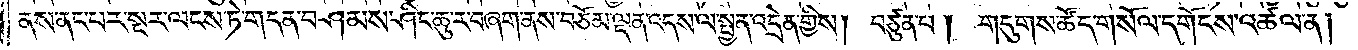ནས་ནང་པར་སྔར་ལངས་ཏེ་གདན་བཤམས་ཤིང་ཆུ་ར་བཞག་ནས་བཅོམ་ལྡན་འདས་ལ་སྤྱན་འདྲེན་གྱིས། བཙུན་པ། གདུགས་ཚོད་གསོལ་དགོངས་འཚལ་ན།
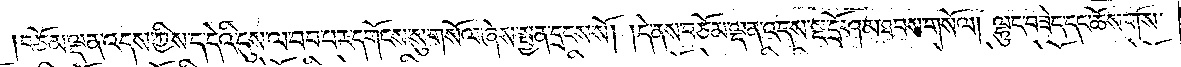བཅོམ་ལྡན་འདས་ཀྱིས་ད་དེའི་དུས་ལ་བབ་པར་དགོངས་སུ་གསོལ་ཞེས་སྤྱན་དྲངས་སོ། །དེ་ནས་བཅོམ་ལྡན་འདས་སྔ་དྲོ་ཤམ་ཐབས་གསོལ། ལྷུང་བཟེད་དང་ཆོས་གོས་
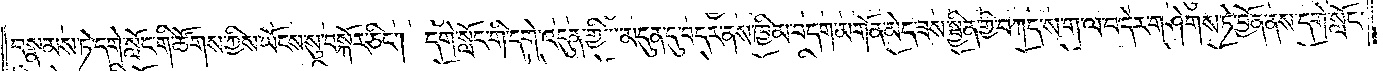བསྣམས་ཏེ་དགེ་སློང་གི་ཚོགས་ཀྱིས་ཡོངས་སུ་བསྐོར་ཅིང༌། དགེ་སློང་གི་དགེ་འདུན་གྱིས་མདུན་དུ་བདར་ནས་ཁྱིམ་བདག་མགོན་མེད་ཟས་སྦྱིན་གྱི་བཀད་ས་ག་ལ་བ་དེར་གཤེགས་ཏེ་བྱོན་ནས་དགེ་སློང་
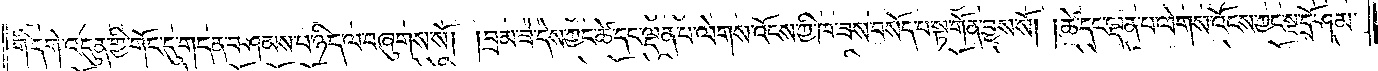གི་དགེ་འདུན་གྱི་གོང་དུ་གདན་བཤམས་པ་ཉིད་ལ་བཞུགས་སོ། །བྲམ་ཟེ་དེས་ཀྱང་ཚེ་དང་ལྡན་པ་ལེགས་འོངས་ཀྱི་ཁ་ཟས་བསོད་པ་སྟ་གོན་བྱས་སོ། །ཚེ་དང་ལྡན་པ་ལེགས་འོངས་ཀྱང་སྔ་དྲོ་ཤམ་
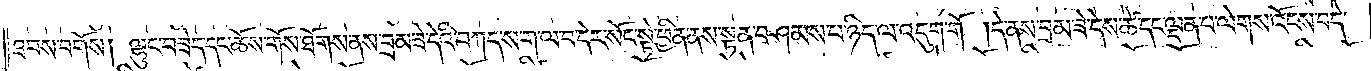ཐབས་བགོས། ལྷུང་བཟེད་དང་ཆོས་གོས་ཐོགས་ནས་བྲམ་ཟེ་དེའི་བཀད་ས་ག་ལ་བ་དེར་སོང་སྟེ་ཕྱིན་ནས་སྟན་བཤམས་པ་ཉིད་ལ་འདུག་གོ །དེ་ནས་བྲམ་ཟེ་དེས་ཚེ་དང་ལྡན་པ་ལེགས་འོངས་བདེ་
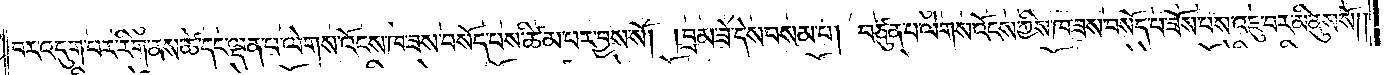བར་འདུག་པར་རིག་ནས་ཚེ་དང་ལྡན་པ་ལེགས་འོངས་ཁ་ཟས་བསོད་པས་ཚིམ་པར་བྱས་སོ། །བྲམ་ཟེ་དེས་བསམ་པ། བཙུན་པ་ལེགས་འོངས་ཀྱིས་ཁ་ཟས་བསོད་པ་ཟོས་པས་འཇུ་བར་མི་ནུས་སོ། །
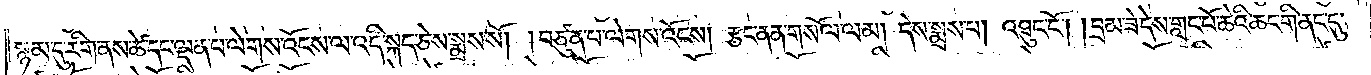སྙམ་དུ་རིག་ནས་ཚེ་དང་ལྡན་པ་ལེགས་འོངས་ལ་འདི་སྐད་ཅེས་སྨྲས་སོ། །བཙུན་པ་ལེགས་འོངས། རྩང་ནན་གསོལ་ལམ། དེས་སྨྲས་པ། འཐུང་ངོ༌། །བྲམ་ཟེ་དེས་གླང་པོ་ཆེའི་ཆང་གི་ནང་དུ་
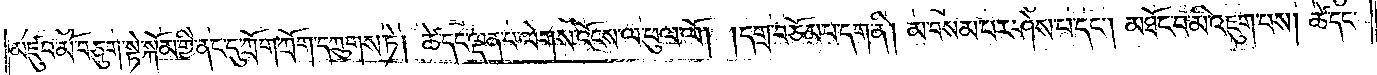མཛུབ་མོ་བཅུག་སྟེ་སྐོམ་གྱི་ནང་དུ་ཀྲོག་ཀྲོག་དཀྲུགས་ཏེ། ཚེ་དང་ལྡན་པ་ལེགས་འོངས་ལ་ཕུལ་ལོ། །དགྲ་བཅོམ་པ་དག་ནི། མ་བསམ་པར་ཤེས་པ་དང༌། མཐོང་བ་མི་འཇུག་པས། ཚེ་དང་
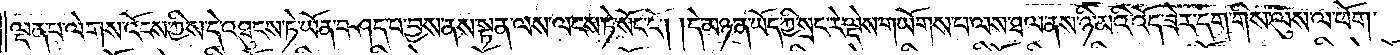ལྡན་པ་ལེགས་འོངས་ཀྱིས་དེ་འཐུངས་ཏེ་ཡོན་བཤད་པ་བྱས་ནས་སྟན་ལས་ལངས་ཏེ་སོང་ངོ༌། །དེ་མཉན་ཡོད་ཀྱི་སྲང་རེ་ལྡེས་གཡོགས་པ་ལས་ཐལ་ནས་ཉི་མའི་འོད་ཟེར་དག་གིས་ལུས་ལ་ཕོག་
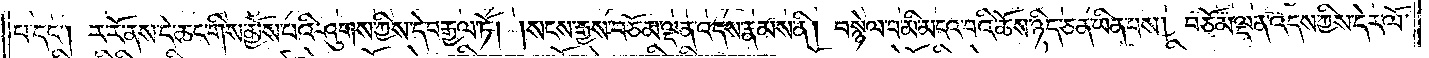པ་དང༌། ར་རོ་ནས་དེ་ཆང་གིས་མྱོས་པའི་ཤུགས་ཀྱིས་དེ་བརྒྱལ་ཏོ། །སངས་རྒྱས་བཅོམ་ལྡན་འདས་རྣམས་ནི། བསྙེལ་བ་མི་མངའ་བའི་ཆོས་ཉིད་ཅན་ཡིན་པས། བཅོམ་ལྡན་འདས་ཀྱིས་དེར་ལོ་
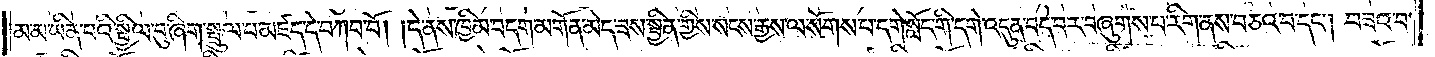མ་མ་ཡིན་པའི་སྤྱིལ་བུ་ཞིག་སྤྲུལ་པ་མཛད་དེ་བཀབ་བོ། །དེ་ནས་ཁྱིམ་བདག་མགོན་མེད་ཟས་སྦྱིན་གྱིས་སངས་རྒྱས་ལ་སོགས་པ་དགེ་སློང་གེ་དགེ་འདུན་བདེ་བར་བཞུགས་པ་རིག་ནས་བཅའ་བ་དང༌། བཟའ་བ་
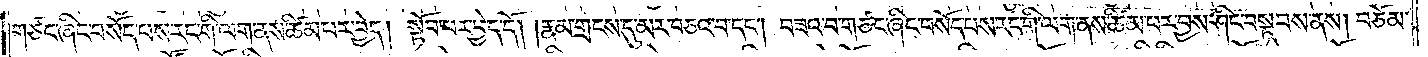གཙང་ཞིང་བསོད་པས་རང་གི་ལག་ནས་ཚིམ་པར་བྱེད། སྟོབ་པར་བྱེད་དོ། །རྣམ་གྲངས་དུ་མར་བཅའ་བ་དང༌། བཟའ་བ་གཙང་ཞིང་བསོད་པས་རང་གི་ལག་ནས་ཚིམ་པར་བྱས་ཤིང་བསྟབས་ནས། བཅོམ་
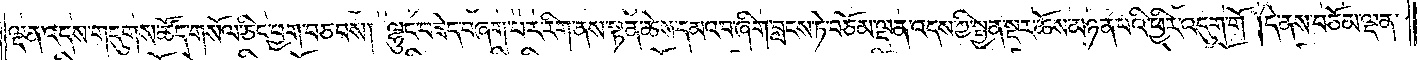ལྡན་འདས་གདུགས་ཚོད་གསོལ་ཅིང་ཕྱག་བཅབས། ལྷུང་བཟེད་བཞག་པར་རིག་ནས་སྟན་ཆེས་དམའ་བ་ཞིག་བླངས་ཏེ་བཅོམ་ལྡན་འདས་ཀྱི་སྤྱན་སྔར་ཆོས་མཉན་པའི་ཕྱིར་འདུག་གོ། དེ་ནས་བཅོམ་ལྡན་
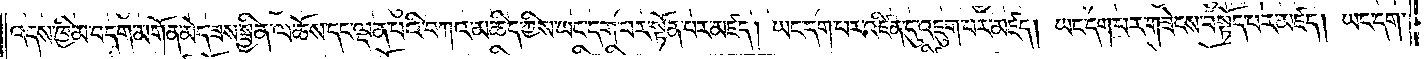འདས་ཁྱིམ་བདག་མགོན་མེད་ཟས་སྦྱིན་ལ་ཆོས་དང་ལྡན་པའི་བཀའ་མཆིད་ཀྱིས་ཡང་དག་པར་སྟོན་པར་མཛད། ཡང་དག་པར་འཛིན་དུ་འཇུག་པར་མཛད། ཡང་དག་པར་གཟེངས་བསྟོད་པར་མཛད། ཡང་དག་
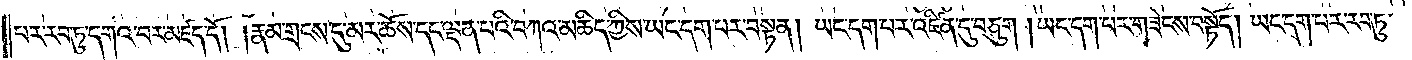པར་རབ་ཏུ་དགའ་བར་མཛད་དོ། །རྣམ་གྲངས་དུ་མར་ཆོས་དང་ལྡན་པའི་བཀའ་མཆིད་ཀྱིས་ཡང་དག་པར་བསྟན། ཡང་དག་པར་འཛིན་དུ་བཅུག །ཡང་དག་པར་གཟེངས་བསྟོད། ཡང་དག་པར་རབ་ཏུ་
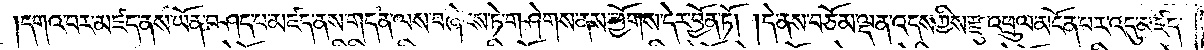དགའ་བར་མཛད་ནས་ཡོན་བཤད་པ་མཛད་ནས་གདན་ལས་བཞེངས་ཏེ་གཤེགས་ནས་ཕྱོགས་དེར་བྱོན་ཏོ། །དེ་ནས་བཅོམ་ལྡན་འདས་ཀྱིས་རྫུ་འཕྲུལ་མངོན་པར་འདུ་མཛད་
